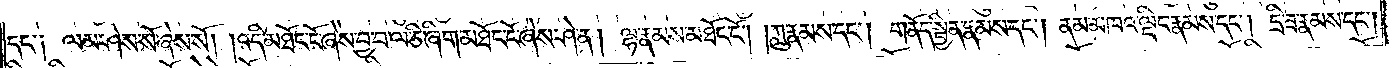དང་༑ ལམ་ཤེས་སོ་ཞེས་སོ། །འདི་མཐོང་ངོ་ཞེས་བྱ་བ་ལ་ཅི་ཞིག་མཐོང་ངོ་ཞེས་ཤེ་ན། ལྷ་རྣམས་མཐོང་ངོ༌། །ཀླུ་རྣམས་དང༌། གནོད་སྦྱིན་རྣམས་དང༌། ནམ་མཁའ་ལྡིང་རྣམས་དང༌། དྲི་ཟ་རྣམས་དང༌།
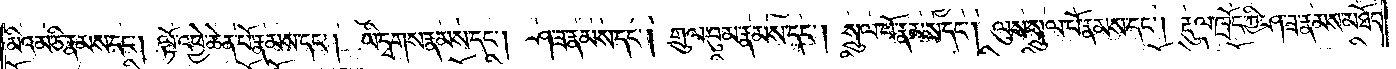མིའམ་ཅི་རྣམས་དང༌། ལྟོ་འཕྱེ་ཆེན་པོ་རྣམས་དང༌། ཡི་དྭགས་རྣམས་དང༌། ཤ་ཟ་རྣམས་དང༌། གྲུལ་བུམ་རྣམས་དང༌། སྲུལ་པོ་རྣམས་དང༌། ལུས་སྲུལ་པོ་རྣམས་དང༌། རྡུལ་ཁྲོད་ཀྱི་ཤ་ཟ་རྣམས་མཐོང་
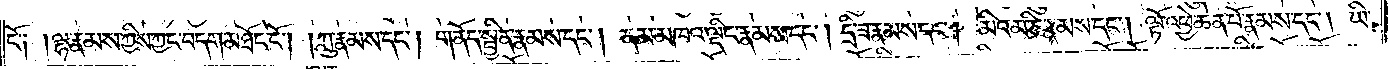ངོ༑ །ལྷ་རྣམས་ཀྱིས་ཀྱང་བདག་མཐོང་ངོ༌། །ཀླུ་རྣམས་དང༌། གནོད་སྦྱིན་རྣམས་དང༌། ནམ་མཁའ་ལྡིང་རྣམས་དང༌། དྲི་ཟ་རྣམས་དང༌། མིའམ་ཅི་རྣམས་དང༌། ལྟོ་འཕྱེ་ཆེན་པོ་རྣམས་དང༌། ཡི་
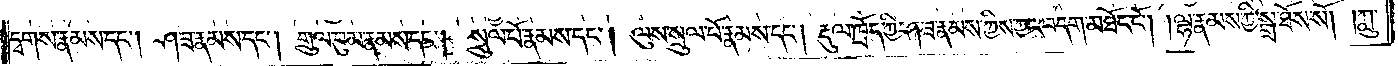དྭགས་རྣམས་དང༌། ཤ་ཟ་རྣམས་དང༌། གྲུལ་བུམ་རྣམས་དང༌། སྲུལ་པོ་རྣམས་དང༌། ལུས་སྲུལ་པོ་རྣམས་དང༌། རྡུལ་ཁྲོད་ཀྱི་ཤ་ཟ་རྣམས་ཀྱིས་ཀྱང་བདག་མཐོང་ངོ༌། །ལྷ་རྣམས་ཀྱི་སྒྲ་ཐོས་སོ། །ཀླུ་
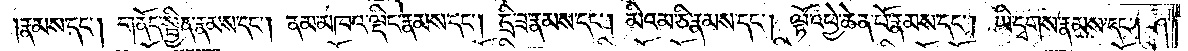།རྣམས་དང༌། གནོད་སྦྱིན་རྣམས་དང༌། ནམ་མཁའ་ལྡིང་རྣམས་དང༌། དྲི་ཟ་རྣམས་དང༌། མིའམ་ཅི་རྣམས་དང༌། ལྟོ་འཕྱེ་ཆེན་པོ་རྣམས་དང༌། ཡི་དྭགས་རྣམས་དང༌། ཤ་
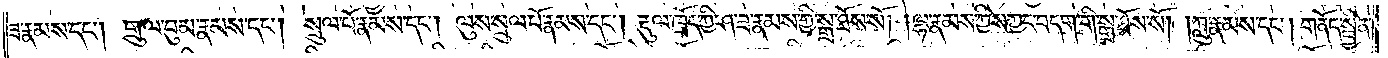ཟ་རྣམས་དང༌། གྲུལ་བུམ་རྣམས་དང༌། སྲུལ་པོ་རྣམས་དང༌། ལུས་སྲུལ་པོ་རྣམས་དང༌། རྡུལ་ཁྲོད་ཀྱི་ཤ་ཟ་རྣམས་ཀྱི་སྒྲ་ཐོས་སོ། །ལྷ་རྣམས་ཀྱིས་ཀྱང་བདག་གི་སྒྲ་ཐོས་སོ། །ཀླུ་རྣམས་དང༌། གནོད་སྦྱིན་
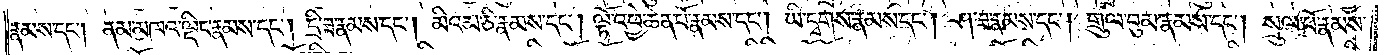རྣམས་དང༌། ནམ་མཁའ་ལྡིང་རྣམས་དང༌། དྲི་ཟ་རྣམས་དང༌། མིའམ་ཅི་རྣམས་དང༌། ལྟོ་འཕྱེ་ཆེན་པོ་རྣམས་དང༌། ཡི་དྭགས་རྣམས་དང༌། ཤ་ཟ་རྣམས་དང༌། གྲུལ་བུམ་རྣམས་དང༌། སྲུལ་པོ་རྣམས་
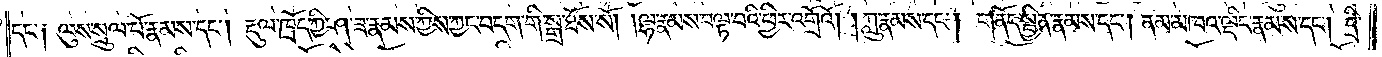དང་༑ ལུས་སྲུལ་པོ་རྣམས་དང༌། རྡུལ་ཁྲོད་ཀྱི་ཤ་ཟ་རྣམས་ཀྱིས་ཀྱང་བདག་གི་སྒྲ་ཐོས་སོ། །ལྷ་རྣམས་བལྟ་བའི་ཕྱིར་འགྲོའོ། །ཀླུ་རྣམས་དང༌། གནོད་སྦྱིན་རྣམས་དང༌། ནམ་མཁའ་ལྡིང་རྣམས་དང༌། དྲི་
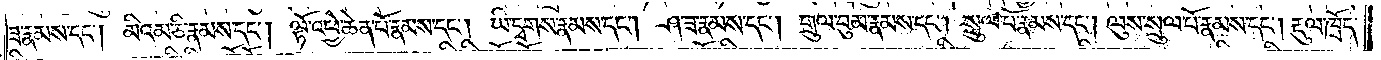ཟ་རྣམས་དང༌། མིའམ་ཅི་རྣམས་དང༌། ལྟོ་འཕྱེ་ཆེན་པོ་རྣམས་དང༌། ཡི་དྭགས་རྣམས་དང༌། ཤ་ཟ་རྣམས་དང༌། གྲུལ་བུམ་རྣམས་དང༌། སྲུལ་པོ་རྣམས་དང༌། ལུས་སྲུལ་པོ་རྣམས་དང༌། རྡུལ་ཁྲོད་
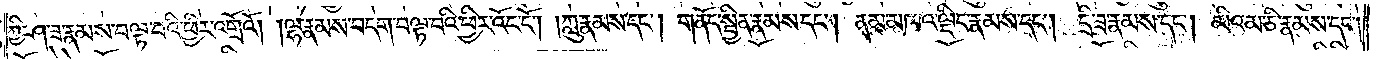ཀྱི་ཤ་ཟ་རྣམས་བལྟ་བའི་ཕྱིར་འགྲོའོ། །ལྷ་རྣམས་བདག་བལྟ་བའི་ཕྱིར་འོང་ངོ༌། །ཀླུ་རྣམས་དང༌། གནོད་སྦྱིན་རྣམས་དང༌། ནམ་མཁའ་ལྡིང་རྣམས་དང༌། དྲི་ཟ་རྣམས་དང༌། མིའམ་ཅི་རྣམས་དང༌།
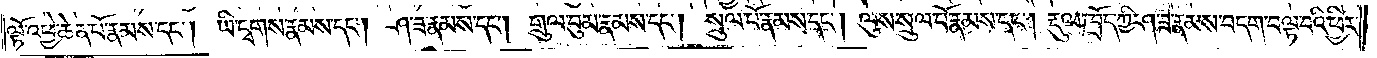ལྟོ་འཕྱེ་ཆེན་པོ་རྣམས་དང༌། ཡི་དྭགས་རྣམས་དང༌། ཤ་ཟ་རྣམས་དང༌། གྲུལ་བུམ་རྣམས་དང༌།  སྲུལ་པོ་རྣམས་དང༌། ལུས་སྲུལ་པོ་རྣམས་དང༌། རྡུལ་ཁྲོད་ཀྱི་ཤ་ཟ་རྣམས་བདག་བལྟ་བའི་ཕྱིར་
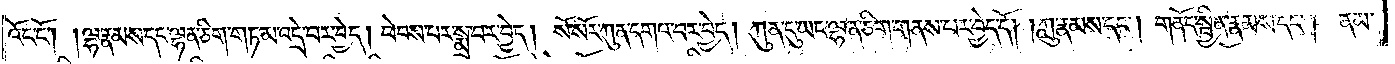འོང་ངོ༌། །ལྷ་རྣམས་དང་ལྷན་ཅིག་གཏམ་འདྲེ་བར་བྱེད། ཕེབས་པར་སྨྲ་བར་བྱེད། སོ་སོར་ཀུན་དགའ་བར་བྱེད། ཀུན་དུ་ཡང་ལྷན་ཅིག་གནས་པར་བྱེད་དོ། །ཀླུ་རྣམས་དང༌། གནོད་སྦྱིན་རྣམས་དང༌། ནམ་
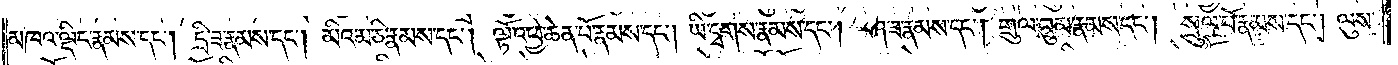མཁའ་ལྡིང་རྣམས་དང༌། དྲི་ཟ་རྣམས་དང༌། མིའམ་ཅི་རྣམས་དང༌། ལྟོ་འཕྱེ་ཆེན་པོ་རྣམས་དང༌། ཡི་དྭགས་རྣམས་དང༌། ཤ་ཟ་རྣམས་དང༌། གྲུལ་བུམ་རྣམས་དང༌། སྲུལ་པོ་རྣམས་དང༌། ལུས་
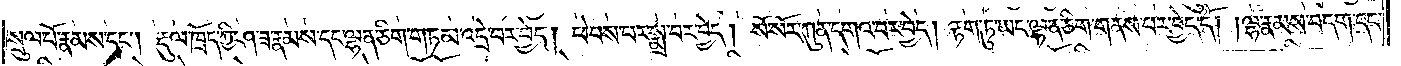སྲུལ་པོ་རྣམས་དང༌། རྡུལ་ཁྲོད་ཀྱི་ཤ་ཟ་རྣམས་དང་ལྷན་ཅིག་གཏམ་འདྲེ་བར་བྱེད། ཕེབས་པར་སྨྲ་བར་བྱེད། སོ་སོར་ཀུན་དགའ་བར་བྱེད། རྟག་ཏུ་ཡང་ལྷན་ཅིག་གནས་པར་བྱེད་དོ། །ལྷ་རྣམས་བདག་དང་
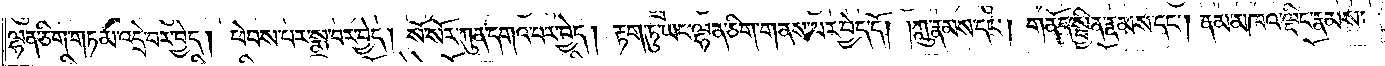ལྷན་ཅིག་གཏམ་འདྲེ་བར་བྱེད། ཕེབས་པར་སྨྲ་བར་བྱེད། སོ་སོར་ཀུན་དགའ་པར་བྱེད། རྟག་ཏུ་ཡང་ལྷན་ཅིག་གནས་པར་བྱེད་དོ། །ཀླུ་རྣམས་དང༌། གནོད་སྦྱིན་རྣམས་དང༌། ནམ་མཁའ་ལྡིང་རྣམས་
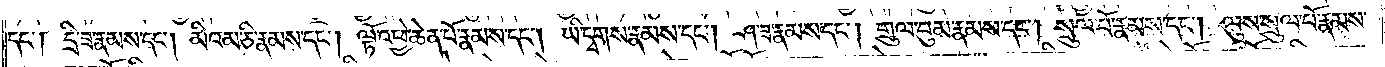དང༌། དྲི་ཟ་རྣམས་དང༌། མིའམ་ཅི་རྣམས་དང༌། ལྟོ་འཕྱེ་ཆེན་པོ་རྣམས་དང༌། ཡི་དྭགས་རྣམས་དང༌། ཤ་ཟ་རྣམས་དང༌། གྲུལ་བུམ་རྣམས་དང༌། སྲུལ་པོ་རྣམས་དང༌། ལུས་སྲུལ་པོ་རྣམས་
